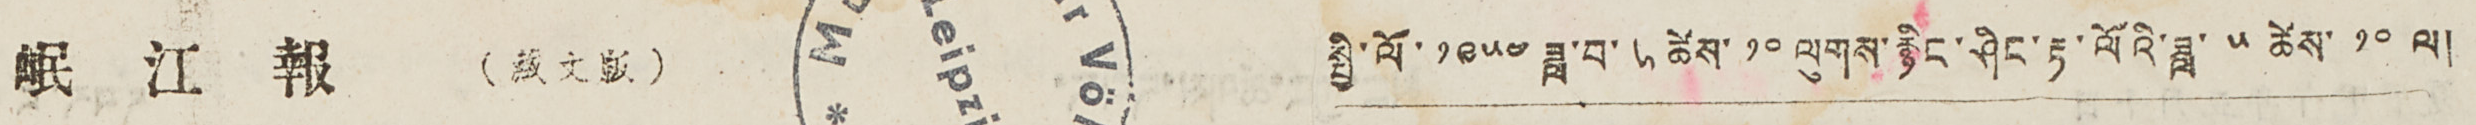岷 江 報 （ 藏文版) སྤྱི་ལོ་ ༡༩༥༤ ཟླ་བ་ ༦ ཚེས་ ༡༠ ལུགས་རྙིང་ཤིང་རྟ་ལོའི་ཟླ་ ༥ ཚེས་ ༡༠ ལ།
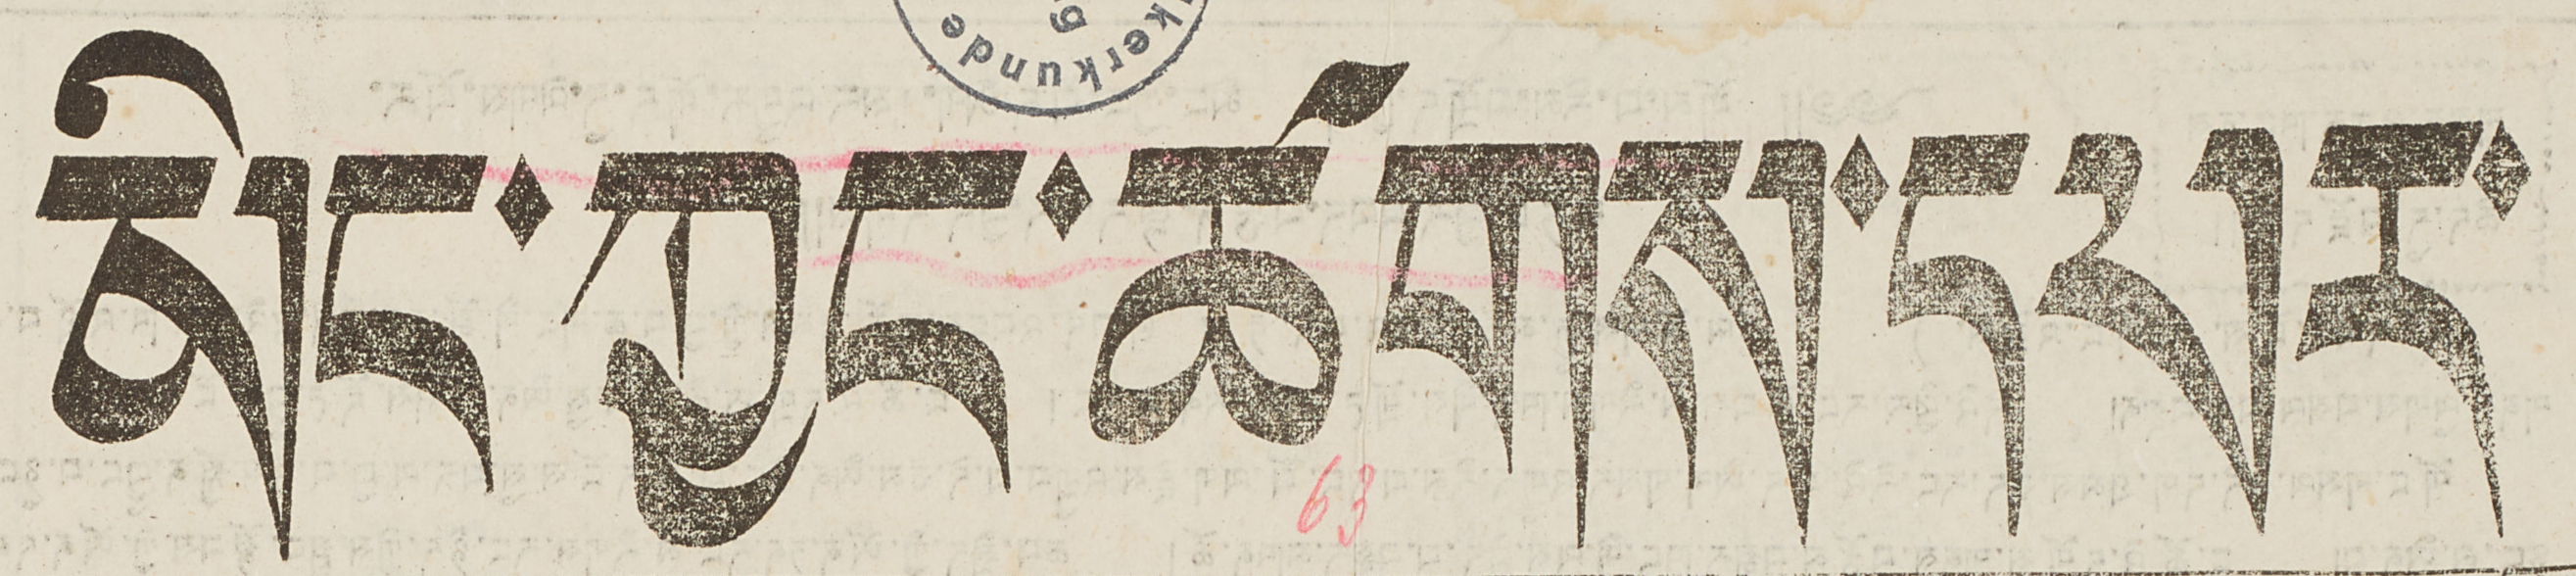མིང་ཀྱང་ཚགས་དཔར་
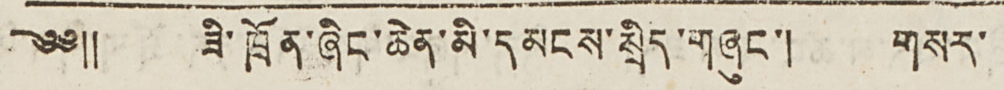༄༅༎ ཟི་ཁྲོན་ཞིང་ཆེན་མི་དམངས་སྲིད་གཞུང་། གསར་
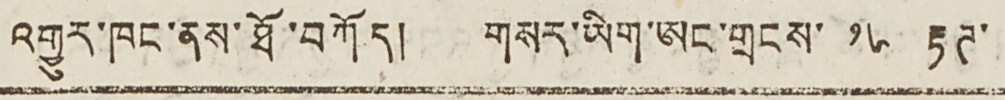འགྱུར་ཁང་ནས་ཐོ་བཀོད། གསར་ཡིག་ཨང་གྲངས་ ༡༦ རྟཊ་
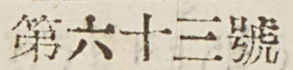第六十三號
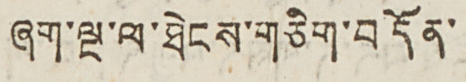ཞག་ལྔ་ལ་ཐེངས་གཅིག་བདོན་
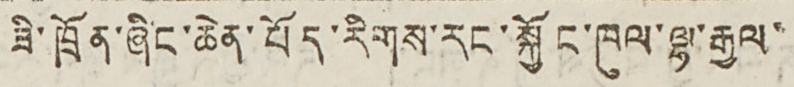ཟི་ཁྲོན་ཞིང་ཆེན་བོད་རིགས་རང་སྐྱོང་ཁུལ་ལྷ་རྒྱལ་
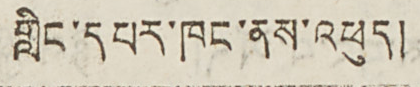གླིང་དཔར་ཁང་ནས་འཕུད།
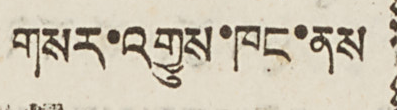གསར་འགྱུས་ཁང་ནས
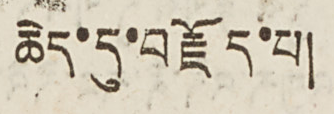ཆེད་དུ་བརྗོད་པ།
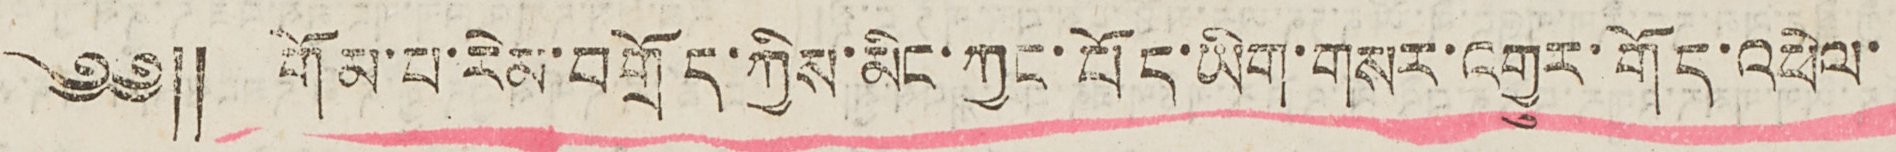༄༅༎ གོམ་པ་རེམ་བགྲོད་ཀྱིས་མིང་ཀྱང་བོད་ཡིག་གསར་འགྱུར་གོད་འཕེལ་
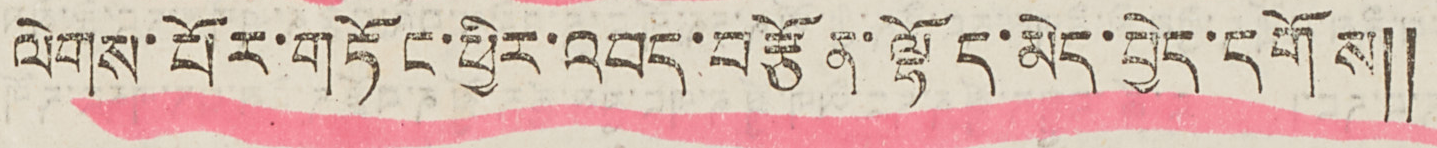ལེགས་པོར་གཏོང་ཕྱིར་འབད་བརྩོན་ལྷོད་མེད་བྱེད་དགོས༎
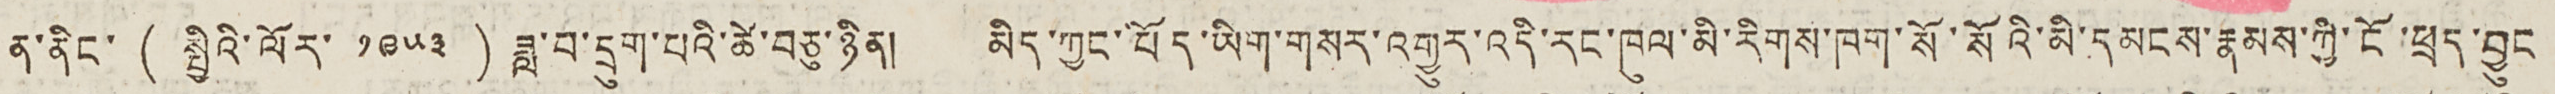ན་ནིང་ ( སྤྱིའི་ལོར་ ༡༩༥༣ ) ཟླ་བ་དྲུག་པའི་ཚེ་བཅུ་ཉིན། མིད་ཀྱང་བོད་ཡིག་གསར་འགྱུར་འདི་རང་ཁུལ་མི་རིགས་ཁག་སོ་སོའི་མི་དམངས་རྣམས་ཀྱི་ངོ་ཕྲད་བྱུང
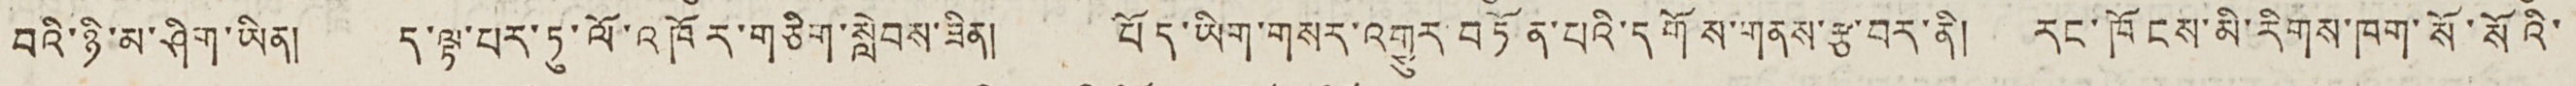བའི་ཉི་མ་ཤིག་ཡིན། ད་ལྟ་པར་ཏུ་ལོ་འཁོར་གཅིག་སླེབས་ཟིན། བོད་ཡིག་གསར་འགྱུར་བཏོན་པའི་དགོས་གནས་རྩ་བར་ནི། རང་ཁོངས་མི་རིགས་ཁག་སོ་སོའི་
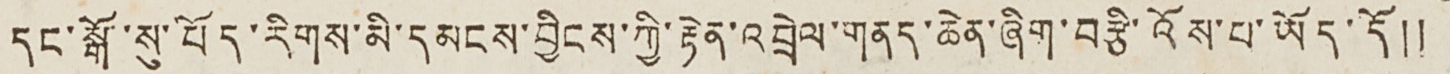དང་སྒོ་སུ་བོད་རིགས་མི་དམངས་བྱིངས་ཀྱི་རྟེན་འབྲེལ་གནད་ཆེན་ཞིག་བརྩི་འོས་པ་ཡོད་དོ།།
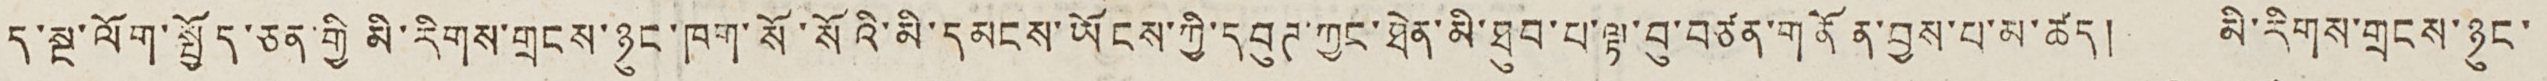ད་སྔ་ལོག་སྤྱོད་ཅན་གྱི མི་རིགས་གྲངས་ཉུང་ཁག་སོ་སོའི་མི་དམངས་ཡོངས་ཀྱི་དབུཊ་ཀྱང་ཐེན་མི་ཐུབ་པ་ལྟ་བུ་བཙན་གནོན་བྱས་པ་མ་ཚད། མི་རིགས་གྲངས་ཉུང་
